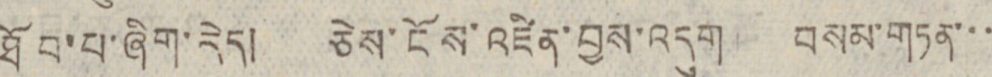ཐོབ་པ་ཞིག་རེད། ཅེས་ངོས་འཛིན་བྱས་འདུག བསམ་གཏན་་་
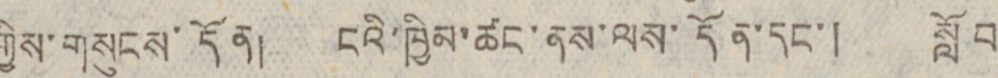གྱིས་གསུངས་དོན། ངའི་ཁྱིམ་ཚང་ནས་ལས་དོན་དང་། སློབ
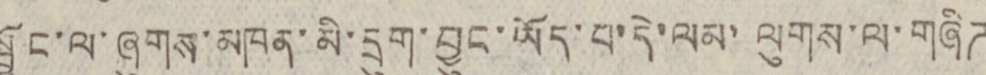སྦྱོང་ལ་ཞུགས་མཁན་མི་དྲུག་བྱུང་ཡོད་པ་དེ་ལས་ལུགས་ལ་གཞིཊ
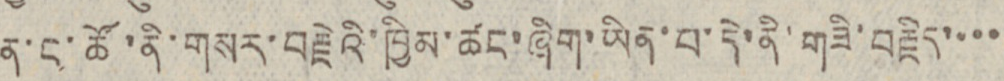ན་ང་ཚོ་ནི་གསར་བརྗེའི་ཁྱིམ་ཚང་ཞིག་ཡིན་པ་དེ་ནི་གཟི་བརྗིད་་་་
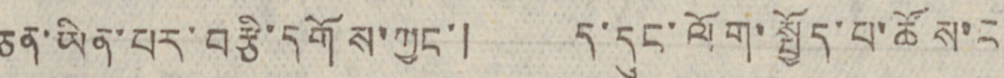ཅན་ཡིན་པར་བརྩི་དགོས་ཀྱང་། ད་དུང་ལོག་སྤྱོད་པ་ཚོས་ང
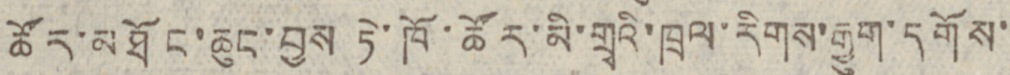ཚོར་མཐོང་ཆུང་བྱས ཏེ་ཁོ་ཚོར་མི་གྲྭའི་ཁྲལ་རིགས་རྒྱུག་དགོས་
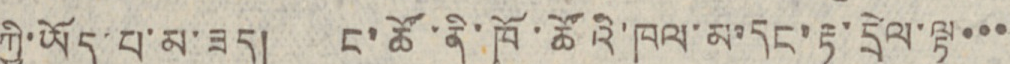ཀྱི་ཡོད་པ་མ་ཟད། ང་ཚོ་ནི་ཁོ་ཚོའི་ཁལ་མ་དང་རྟ་དྲེལ་ལྟ་་་
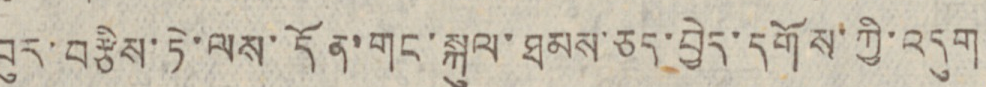བུར་བརྩིས་ཏེ་ལས་དོན་གང་སྐུལ་ཐམས་ཅད་བྱེད་དགོས་ཀྱི་འདུག
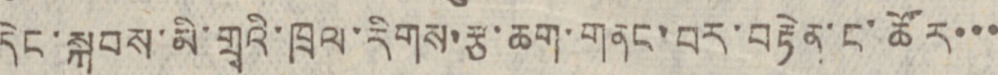དེང་སྐབས་མི་གྲྭའི་ཁྲལ་རིགས་རྩ་ཆག་གནང་བར་བརྟེན་ང་ཚོར་་་
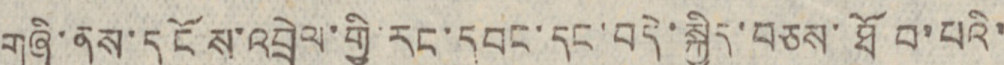གཞི་ནས་དངོས་འབྲེལ་གྱི རང་དབང་དང་བདེ་སྐྱིད་བཅས་ཐོབ་པའི་
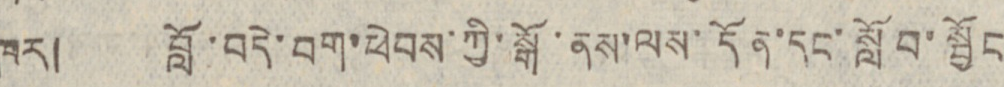ཁར། བློ་བདེ་བག་ཕེབས་ཀྱི་སྒོ་ནས་ལས་དོན་དང་སློབ་སྦྱོང
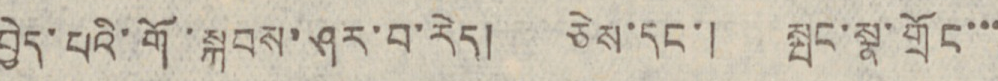བྱེད་པའི་གོ་སྐབས་ཤར་བ་རེད། ཅེས་དང་། སྤང་སྣ་གྲོང་་་
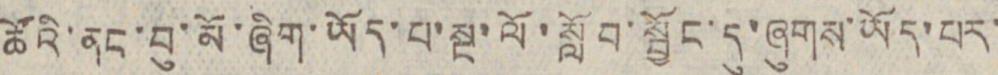ཚོའི་ནང་བུ་མོ་ཞིག་ཡོད་པ་སྔ་ལོ་སློབ་སྦྱོང་དུ་ཞུགས་ཡོད་པར་
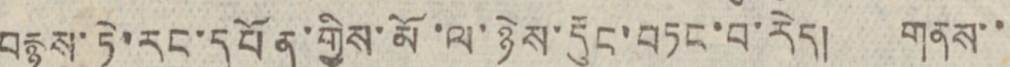བརྙས་ཏེ་རང་དཔོན་གྱིས་མོ་ལ་ཉེས་རྡུང་བཏང་བ་རེད། གནས་་
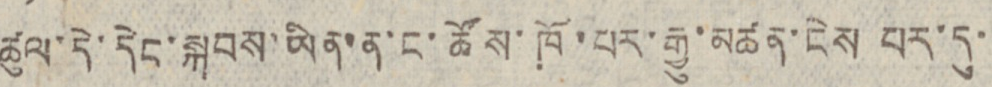ཚུལ་དེ་དེང་སྐབས་ཡིན་ན་ང་ཚོས་ཁོ་པར་རྒྱུ་མཚན་ངེས པར་དུ་་
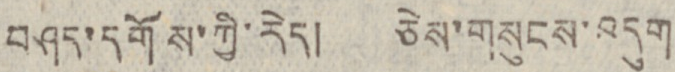བཤད་དགོས་ཀྱི་རེད། ཅེས་གསུངས་འདུག
